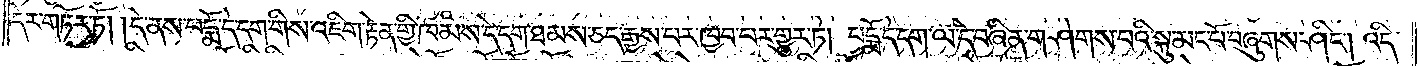དེར་གཏོར་ཏོ༎  དེ་ནས་པདྨོ་དེ་དག་གིས་འཇིག་རྟེན་གྱི་ཁམས་དེ་དག་ཐམས་ཅད་རྒྱས་པར་ཁྱབ་པར་གྱུར་ཏེ།   པདྨོ་དེ་དག་ལ་དེ་བཞིན་གཤེགས་པའི་སྐུ་མང་པོ་བཞུགས་ཤིང་།  འདི་
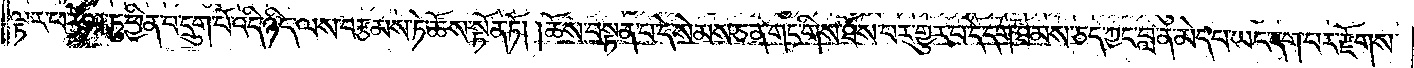ཀྱི་ཞབས་གཉིས་ལ་སྤྱི་བོས་ཕྱག་བཙལ་ཏེ་ཕྱོགས་གཅིག་ཏུ་འཁོད་དོ། །ཕྱོགས་གཅིག་ཏུ་འཁོད་ནས་བྱང་ཆུབ་སེམས་དཔའ་སེམས་དཔའ་ཆེན་པོ་ཉི་མ་རབ་ཏུ་སྣང་བས། བཅོམ་
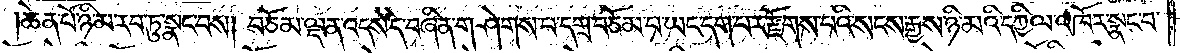ཆེན་པོ་ཉི་མ་རབ་ཏུ་སྣང་བས།    བཅོམ་ལྡན་འདས་དེ་བཞིན་གཤེགས་པ་དགྲ་བཅོམ་པ་ཡང་དག་པར་རྫོགས་པའི་སངས་རྒྱས་ཉི་མའི་དཀྱིལ་འཁོར་སྣང་བ་
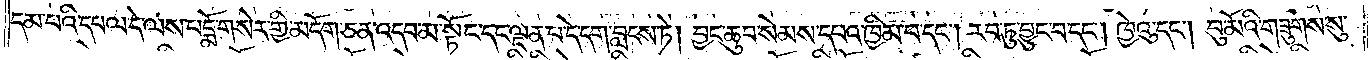དམ་པའི་དཔལ་དེ་ལས་པདྨོ་གསེར་གྱི་མདོག་ཅན་འདབ་མ་སྟོང་དང་ལྡན་པ་དེ་དག་བླངས་ཏེ།  བྱང་ཆུབ་སེམས་དཔའ་ཁྱིམ་པ་དང་།  རབ་ཏུ་བྱུང་བ་དང་།  ཁྱེའུ་དང་།  བུ་མོའི་གཟུགས་སུ་
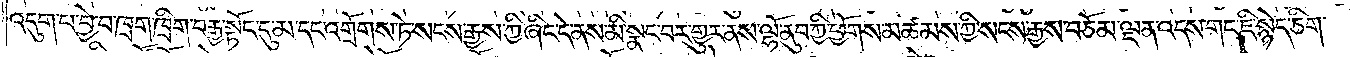འདུག་པ་བྱེ་བ་ཁྲག་ཁྲིག་བརྒྱ་སྟོང་དུ་མ་དང་འགྲོགས་ཏེ་སངས་རྒྱས་ཀྱི་ཞིང་དེ་ནས་མི་སྣང་བར་གྱུར་ནས་ལྷོ་ནུབ་ཀྱི་ཕྱོགས་མཚམས་ཀྱི་སངས་རྒྱས་བཅོམ་ལྡན་འདས་གང་ཇི་སྙེད་ཅིག་
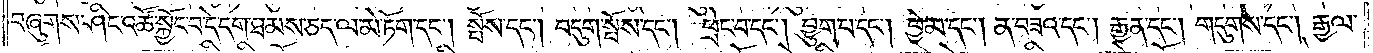བཞུགས་ཤིང་འཚོ་སྐྱོང་བ་དེ་དག་ཐམས་ཅད་ལ་མེ་ཏོག་དང༌། སྤོས་དང༌། བདུག་སྤོས་དང༌། ཕྲེང་བ་དང༌། བྱུག་པ་དང༌། ཕྱེ་མ་དང༌། ན་བཟའ་དང༌། རྒྱན་དང༌། གདུགས་དང༌། རྒྱལ་
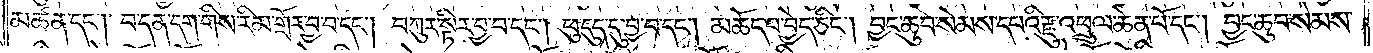མཚན་དང་། བ་དན་དག་གི་རིམ་གྲོར་བྱ་བ་དང་བཀུར་སྟིར་བྱ་བ་དང་། ཕ་དུད་དུ་བྱ་བ་དང་། མཆོད་པ་བྱེད་ཅིང་། བྱང་ཆུབ་སེམས་དཔའི་རྫུ་འཕྲུལ་ཆེན་པོ་དང་། བྱང་ཆུབ་སེམས་
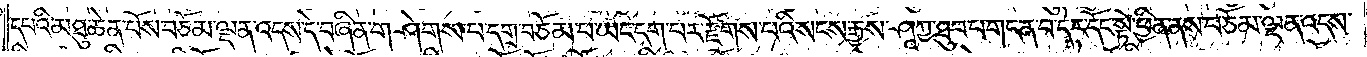དཔའི་མཐུ་ཆེན་པོས་བཅོམ་ལྡན་འདས་དེ་བཞིན་གཤེགས་པ་དགྲ་བཅོམ་པ་ཡང་དག་པར་རྫོགས་པའི་སངས་རྒྱས་ཤཱཀྱ་ཐུབ་པ་གང་ན་བ་དེར་དོང་ནས་ཕྱིན་ནས་བཅོམ་ལྡན་འདས་
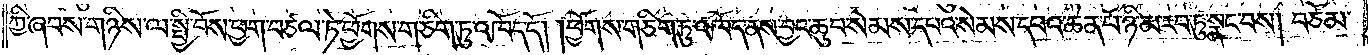ཀྱི་ཞབས་གཉིས་སྤྱི་བོས་ཕྱག་བཙལ་ཏེ་ཕྱོགས་གཅིག་ཏུ་འཁོད་དོ། །ཕྱོགས་གཅིག་ཏུ་འཁོད་ནས་བྱང་ཆུབ་སེམས་དཔའ་སེམས་དཔའ་ཆེན་པོ་ཉི་མ་རབ་ཏུ་སྣང་བས། བཅོམ་
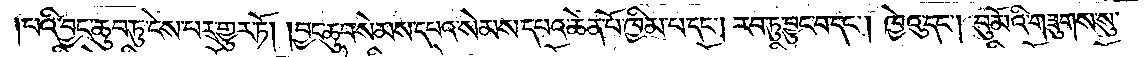པའི་བྱང་ཆུབ་ཏུ་ངེས་པར་གྱུར་ཏོ། །བྱང་ཆུབ་སེམས་དཔའ་སེམས་དཔའ་ཆེན་པོ་ཁྱིམ་པ་དང༌། རབ་ཏུ་བྱུང་བ་དང༌། ཁྱེའུ་དང༌། བུ་མོའི་གཟུགས་སུ་
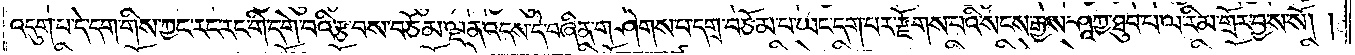འདུག་པ་དེ་དག་གིས་ཀྱང་རང་རང་གི་དགེ་བའི་རྩ་བས་བཅོམ་ལྡན་འདས་དེ་བཞིན་གཤེགས་པ་དགྲ་བཅོམ་པ་ཡང་དག་པར་རྫོགས་པའི་སངས་རྒྱས་ཤཱཀྱ་ཐུབ་པ་ལ་རིམ་གྲོར་བྱས་སོ། །
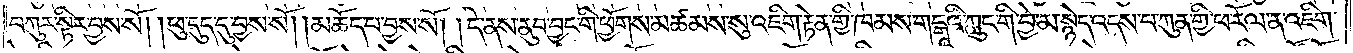བཀུར་སྟིར་བྱས་སོ། །ཕུ་དུད་དུ་བྱས་སོ། །མཆོད་པ་བྱས་སོ། །དེ་ནས་ནུབ་བྱང་གི་ཕྱོགས་མཚམས་སུ་འཇིག་རྟེན་གྱི་ཁམས་གངྒཱའི་ཀླུང་གི་བྱེ་མ་སྙེད་འདས་པ་ཀུན་གྱི་ཕ་རོལ་ན་འཇིག་
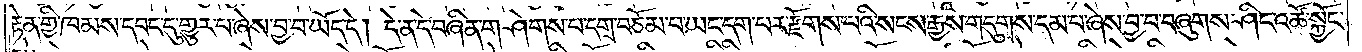རྟེན་གྱི་ཁམས་དབང་དུ་གྱུར་པ་ཞེས་བྱ་བ་ཡོད་དེ། དེ་ན་དེ་བཞིན་གཤེགས་པ་དགྲ་བཅོམ་པ་ཡང་དག་པར་རྫོགས་པའི་སངས་རྒྱས་གདུགས་དམ་པ་ཞེས་བྱ་བ་བཞུགས་ཤིང་འཚོ་སྐྱོང་
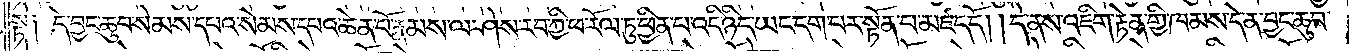སྟེ༑ དེ་བྱང་ཆུབ་སེམས་དཔའ་སེམས་དཔའ་ཆེན་པོ་རྣམས་ལ་ཤེས་རབ་ཀྱི་ཕ་རོལ་ཏུ་ཕྱིན་པ་འདི་ཉིད་ཡང་དག་པར་སྟོན་པ་མཛད་དོ། །དེ་ནས་འཇིག་རྟེན་གྱི་ཁམས་དེ་ན་བྱང་ཆུབ་
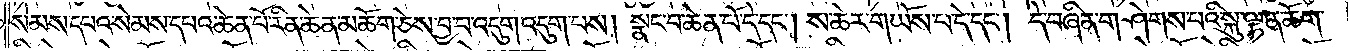སེམས་དཔའ་སེམས་དཔའ་ཆེན་པོ་རིན་ཆེན་མཆོག་ཅེས་བྱ་བ་འདུག་འདུག་པས། སྣང་བ་ཆེན་པོ་དེ་དང༌། ས་ཆེར་གཡོས་པ་དེ་དང༌། དེ་བཞིན་གཤེགས་པའི་སྐུ་ལྟ་ན་ཆོག་
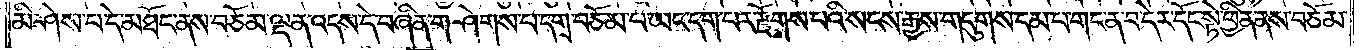མི་ཤེས་པ་དེ་མཐོང་ནས་བཅོམ་ལྡན་འདས་དེ་བཞིན་གཤེགས་པ་དགྲ་བཅོམ་པ་ཡང་དག་པར་རྫོགས་པའི་སངས་རྒྱས་གདུགས་དམ་པ་གང་ན་བ་དེར་དོང་སྟེ་ཕྱིན་ནས་བཅོམ་
